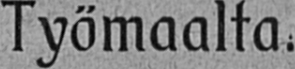Työmaalta.
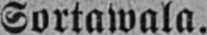Sortawala.
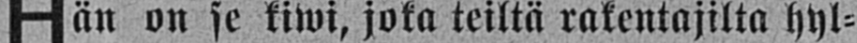Hän on se kiwi, joka teiltä rakentajilta hyl-
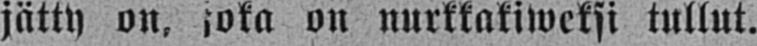jätty on, joka on nurkkakiweksi tullut.
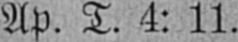Ap. T. 4: 11.
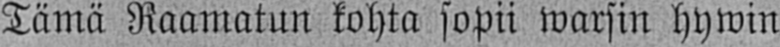Tämä Raamatun kohta sopii warsin hywin
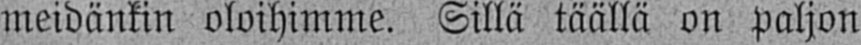meidänkin oloihimme. Sillä täällä on paljon
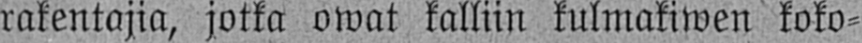rakentajia, jotka owat kalliin kulmakiwen koko-
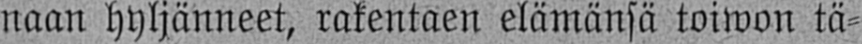naan hyljänneet, rakentaen elämänsä toiwon tä-
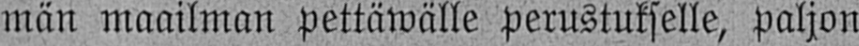män maailman pettäwälle perustukselle, paljon
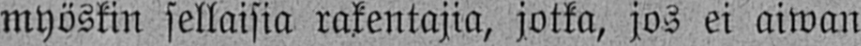myöskin sellaisia rakentajia, jotka, jos ei aiwan
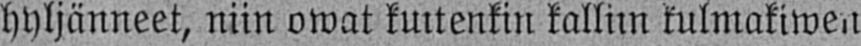hyljänneet, niin owat kuitenkin kalliin kulmakiwen
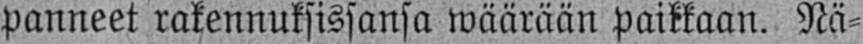panneet rakennuksissansa wäärään paikkaan. Nä-
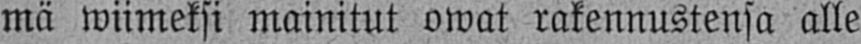mä wiimeksi mainitut owat rakennustensa alle
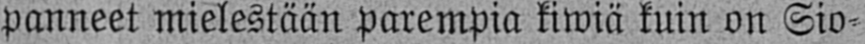panneet mielestään parempia kiwiä kuin on Sio-
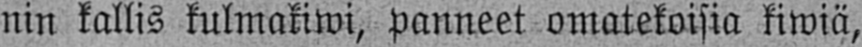nin kallis kulmakiwi, panneet omatekoisia kiwiä,
